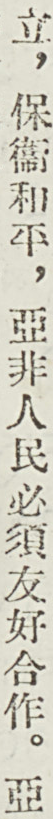立，保衛和平，亞非人民必須友好合作。亞
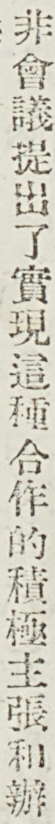非會議提出了實現這種合作的積極主張和辦
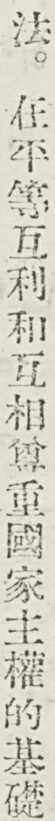法。在平等互利和互相尊重國家主權的基礎
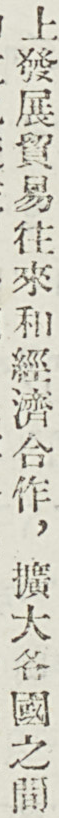上發展貿易往來和經濟合作，擴大各國之間
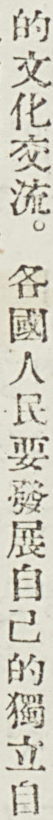的文化交流。各國人民要發展自己的獨立自
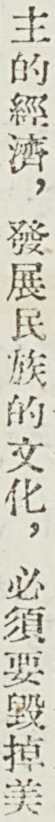主的經濟，發展民族的文化，必須要毀掉美
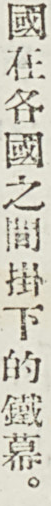國在各國之間掛下的鐵幕。
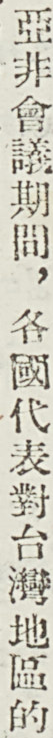亞非會議期間，各國代表對台灣地區的
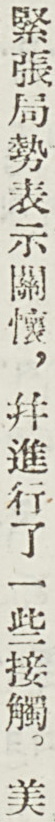緊張局勢表示關懷，並進行了一些接觸。美
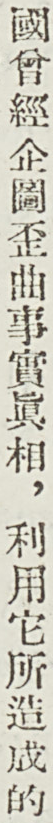國曾經企圖歪曲事實眞相，利用它所造成的
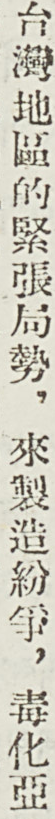台灣地區的緊張局勢，來製造紛爭，毒化亞
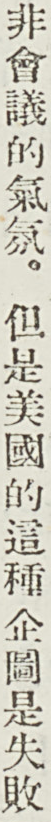非會議的氣氛。但是美國的這種企圖是失敗
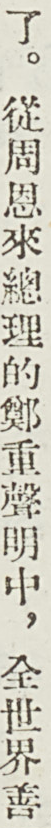了。從周恩來總理的鄭重聲明中，全世界善
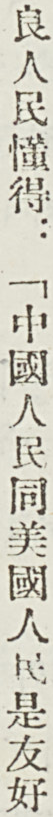良人民懂得：「中國人民同美國人民是友好
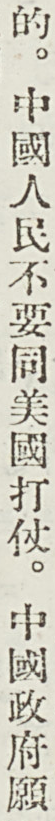的。中國人民不要同美國打仗。中國政府願
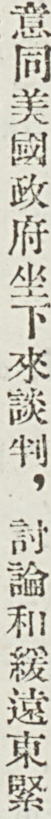意同美國政府坐下來談判，討論和緩遠東緊
